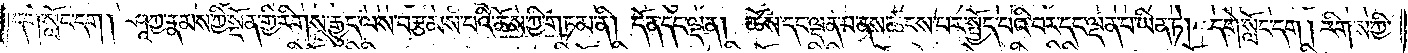དགེ་སློང་དག །ཤཱཀྱ་རྣམས་ཀྱི་སྔོན་གྱི་རིགས་རྒྱུད་ལས་བརྩམས་པའི་ཆོས་ཀྱི་གཏམ་ནི། དོན་དང་ལྡན། ཆོས་དང་ལྡན་པ་ནས་ཚངས་པར་སྤྱོད་པའི་བར་དང་ལྡན་པ་ཡིན་ཏེ། དགེ་སློང་དག །རིགས་ཀྱི་
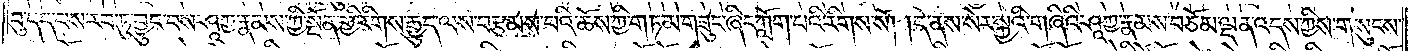བུ་དད་པས་རབ་ཏུ་བྱུང་བས་ཤཱཀྱ་རྣམས་ཀྱི་སྔོན་གྱི་རིགས་རྒྱུད་ལས་བརྩམས་པའི་ཆོས་ཀྱི་གཏམ་གཟུང་ཞིང་ཀློག་པའི་རིགས་སོ། །དེ་ནས་སེར་སྐྱའི་གཞིའི་ཤཱཀྱ་རྣམས་བཅོམ་ལྡན་འདས་ཀྱིས་གསུངས་
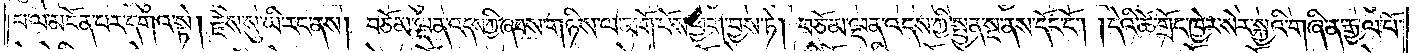པ་ལ་མངོན་པར་དགའ་སྟེ། རྗེས་སུ་ཡི་རང་ནས། བཅོམ་ལྡན་འདས་ཀྱི་ཞབས་གཉིས་ལ་མགོ་བོས་ཕྱག་བྱས་ཏེ། བཅོམ་ལྡན་འདས་ཀྱི་སྤྱན་སྔ་ནས་དོང་ངོ༌། །དེའི་ཚེ་གྲོང་ཁྱེར་སེར་སྐྱའི་གཞི་ན་རྒྱལ་པོ་
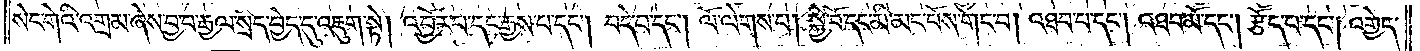སེང་གེའི་འགྲམ་ཞེས་བྱ་བ་རྒྱལ་སྲིད་བྱེད་དུ་འཇུག་སྟེ། འབྱོར་པ་དང་རྒྱས་པ་དང༌། བདེ་བ་དང༌། ལོ་ལེགས་པ། སྐྱེ་བོ་དང་མི་མང་པོས་གང་བ། འཐབ་པ་དང༌། འཐབ་མོ་དང༌། རྩོད་པ་དང༌། འགྱེད་
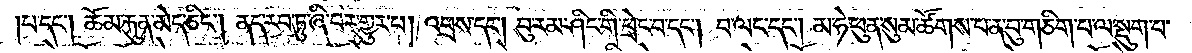།པ་དང༌། ཆོམ་རྐུན་མེད་ཅིང༌། ནད་རབ་ཏུ་ཞི་བར་གྱུར་པ། འབྲས་དང༌། བུ་རམ་ཤིང་གི་ཕྲེང་བ་དང༌། བ་ལང་དང༌། མ་ཧེ་ཕུན་སུམ་ཚོགས་པ་ན་བུ་གཅིག་པ་ལ་སྡུག་པ་
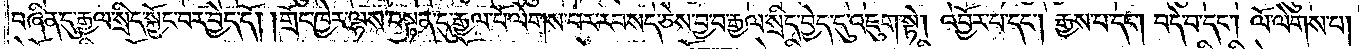བཞིན་དུ་རྒྱལ་སྲིད་སྐྱོང་བར་བྱེད་དོ། །གྲོང་ཁྱེར་ལྷས་བསྟན་དུ་རྒྱལ་པོ་ལེགས་པར་རབ་སད་ཅེས་བྱ་བ་རྒྱལ་སྲིད་བྱེད་དུ་འཇུག་སྟེ། འབྱོར་པ་དང༌། རྒྱས་པ་དང༌། བདེ་བ་དང༌། ལོ་ལེགས་པ།
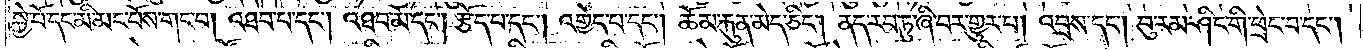སྐྱེ་བོ་དང་མི་མང་པོས་གང་བ། འཐབ་པ་དང༌། འཐབ་མོ་དང༌། རྩོད་པ་དང༌། འགྱེད་པ་དང༌། ཆོམ་རྐུན་མེད་ཅིང༌། ནད་རབ་ཏུ་ཞི་བར་གྱུར་པ། འབྲས་དང༌། བུ་རམ་ཤིང་གི་ཕྲེང་བ་དང༌།
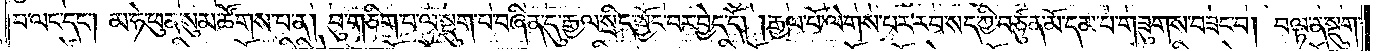བ་ལང་དང༌། མ་ཧེ་ཕུན་སུམ་ཚོགས་པ་ན། བུ་གཅིག་པ་ལ་སྡུག་པ་བཞིན་དུ་རྒྱལ་སྲིད་སྐྱོང་བར་བྱེད་དོ། །རྒྱལ་པོ་ལེགས་པར་རབ་སད་ཀྱི་བཙུན་མོ་དམ་པ་གཟུགས་བཟང་བ། བལྟ་ན་སྡུག་
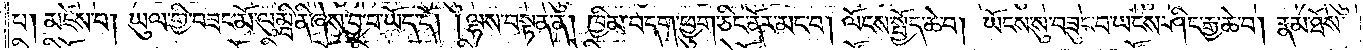པ། མཛེས་པ། ཡུལ་གྱི་བཟང་མོ་ལུམྦི་ནི་ཞེས་བྱ་བ་ཡོད་དོ། །ལྷས་བསྟན་ན། ཁྱིམ་བདག་ཕྱུག་ཅིང་ནོར་མང་བ། ལོངས་སྤྱོད་ཆེ་བ། ཡོངས་སུ་བཟུང་བ་ཡངས་ཤིང་རྒྱ་ཆེ་བ། རྣམ་ཐོས་
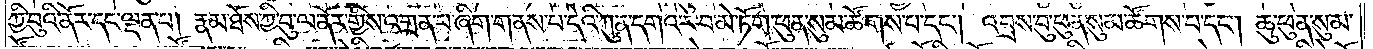ཀྱི་བུའི་ནོར་དང་ལྡན་པ། རྣམ་ཐོས་ཀྱི་བུ་ལ་ནོར་གྱིས་འགྲན་པ་ཞིག་གནས་པ་དེའི་ཀུན་དགའ་ར་བ་མེ་ཏོག་ཕུན་སུམ་ཚོགས་པ་དང༌། འབྲས་བུ་ཕུན་སུམ་ཚོགས་པ་དང༌། ཆུ་ཕུན་སུམ་
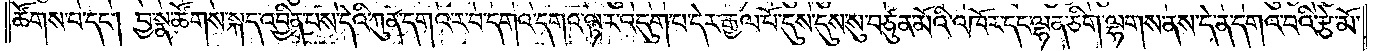ཚོགས་པ་དང༌། བྱ་སྣ་ཚོགས་སྐད་འབྱིན་པས་དེའི་ཀུན་དགའ་ར་བ་དགའ་དགའ་ལྟར་འདུག་པ་དེར་རྒྱལ་པོ་དུས་དུས་སུ་བཙུན་མོའི་འཁོར་དང་ལྷན་ཅིག་ལྷགས་ནས་དེ་ན་དགའ་བའི་རྩེ་མོ་
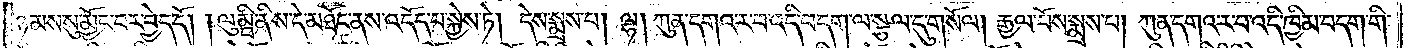ཉམས་སུ་མྱོང་བར་བྱེད་དོ། །ལུམྦི་ནིས་དེ་མཐོང་ནས་འདོད་པ་སྐྱེས་ཏེ། དེས་སྨྲས་པ། ལྷ། ཀུན་དགའ་ར་བ་འདི་བདག་ལ་སྩལ་དུ་གསོལ། རྒྱལ་པོས་སྨྲས་པ། ཀུན་དགའ་ར་བ་འདི་ཁྱིམ་བདག་གི་
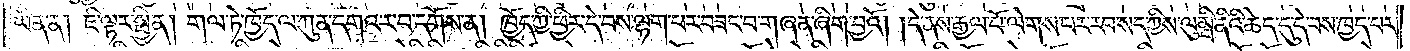ཡིན་ན། ཇི་ལྟར་སྦྱིན། གལ་ཏེ་ཁྱོད་ལ་ཀུན་དགའ་ར་བ་དགོས་ན། ཁྱོད་ཀྱི་ཕྱིར་དེ་བས་ལྷག་པར་བཟང་བ་གཞན་ཞིག་བྱའོ། །དེ་ནས་རྒྱལ་པོ་ལེགས་པར་རབ་སད་ཀྱིས་ལུམྦི་ནིའི་ཆེད་དུ་དེ་བས་ཁྱད་པར་
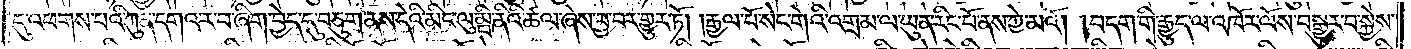དུ་འཕགས་པའི་ཀུན་དགའ་ར་བ་ཞིག་བྱེད་དུ་བཅུག་ནས་དེའི་མིང་ལུམྦི་ནིའི་ཚལ་ཞེས་བྱ་བར་གྱུར་ཏོ། །རྒྱལ་པོ་སེང་གེའི་འགྲམ་ལ་ཡུན་རིང་པོ་ནས་ཀྱེ་མའོ། །བདག་གི་རྒྱུད་ལ་འཁོར་ལོས་བསྒྱུར་བ་སྐྱེས་
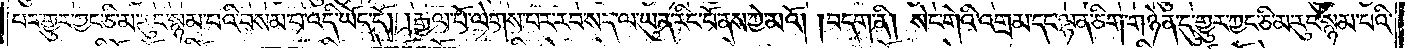པར་གྱུར་ཀྱང་ཅི་མ་རུང་སྙམ་པའི་བསམ་པ་འདི་ཡོད་དོ། །རྒྱལ་པོ་ལེགས་པར་རབ་སད་ལ་ཡུན་རིང་པོ་ནས་ཀྱེ་མའོ། །བདག་ནི། སེང་གེའི་འགྲམ་དང་ལྷན་ཅིག་གཉེན་དུ་གྱུར་ཀྱང་ཅི་མ་རུང་སྙམ་པའི་
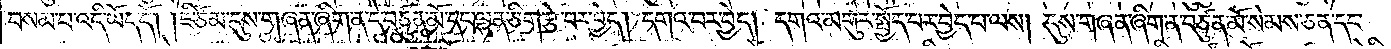བསམ་པ་འདི་ཡོད་དོ། །ཇི་ཙམ་དུས་གཞན་ཞིག་ན་དེ་བཙུན་མོ་དང་ལྷན་ཅིག་རྩེ་བར་བྱེད། དགའ་བར་བྱེད། དགའ་མགུར་སྤྱོད་པར་བྱེད་པ་ལས། དུས་གཞན་ཞིག་ན་བཙུན་མོ་སེམས་ཅན་དང་
